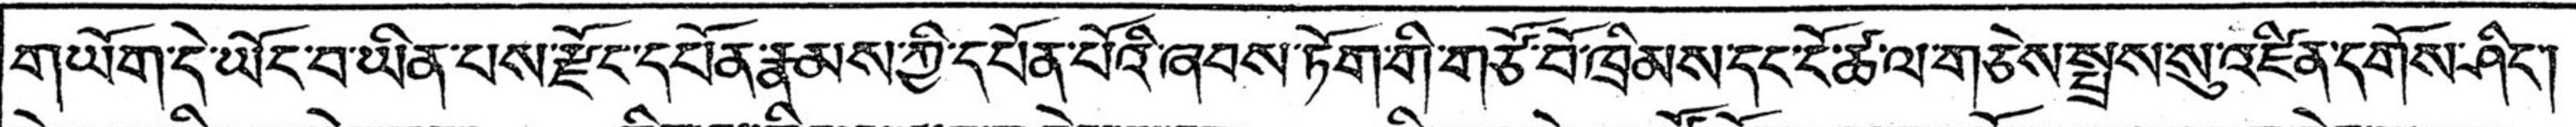གཡོག་དེ་ཡོད་པ་ཡིན་པས་རྫོང་དཔོན་རྣམས་ཀྱི་དཔོན་པོའི་ཞབས་ཏོག་གི་གཙོ་བོ་ཁྲིམས་དང་ངོ་ཚ་ལ་གཅེས་སྤྲས་སུ་འཛིན་དགོས་ཤིང་།
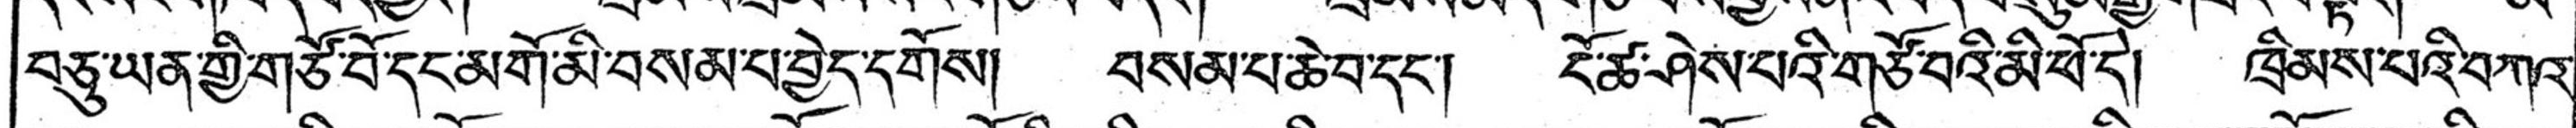བཅུ་ཡན་གྱི་གཙོ་བོ་དང་མགོ་མི་བསམ་པ་བྱེད་དགོས། བསམ་པ་ཆེ་བ་དང་། ངོ་ཚ་ཤེས་པའི་གཙོ་བའི་མི་ཕོ་དེ། ཁྲིམས་པའི་བཀའ་
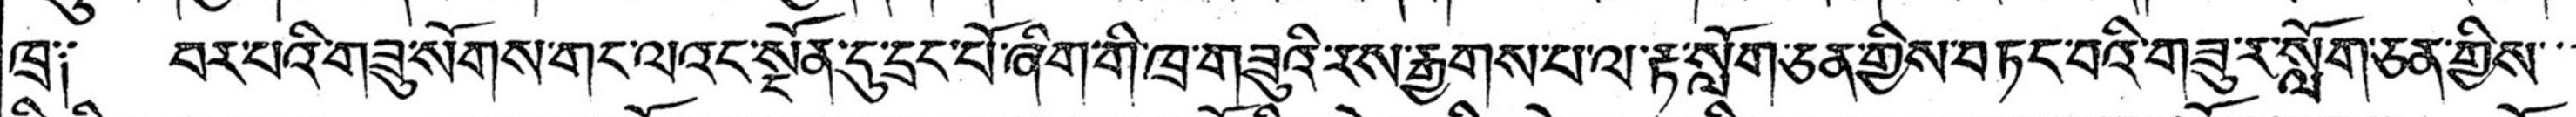ཁྲ༑ བར་པའི་གཟུ་སོགས་གང་ལའང་སྔོན་དུ་དྲང་པོ་ཞིག་གི་ཁྲི་གཟུའི་རས་རྒྱགས་པ་ལ་རྟ་སློག་ཅན་གྱིས་བཏང་བའི་གཟུ་ར་སློག་ཅན་གྱིས་་་
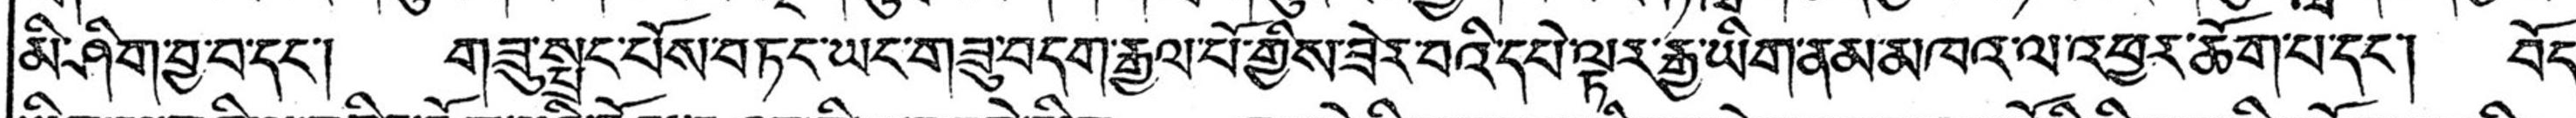མི་ཤིག་བྱ་བ་དང་། གཟུ་སྤྲང་པོས་བཏང་ཡང་གཟུ་བདག་རྒྱལ་པོ་གྱིས་ཟེར་བའི་དཔེ་ལྟར་རྒྱ་ཡིག་ནམ་མཁའ་ལ་འཕྱར་ཆོག་པ་དང་། བོད་
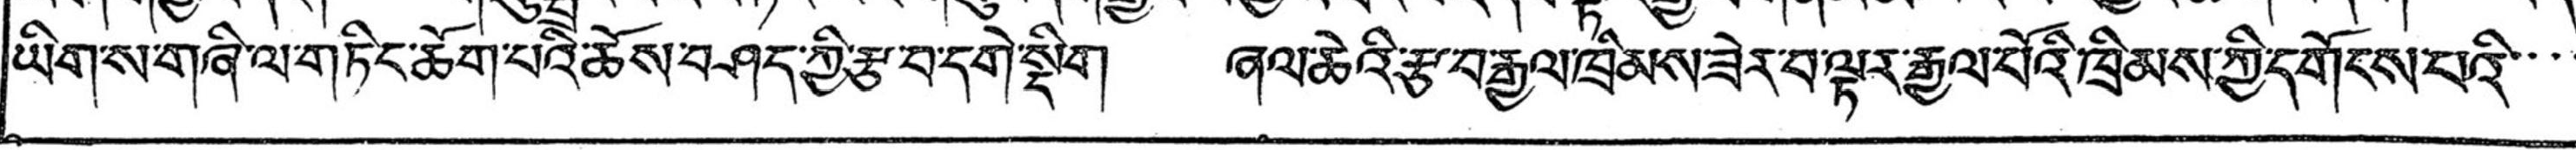ཡིག་ས་གཞི་ལ་གཏིང་ཆོག་པའི་ཆོས་བཤད་ཀྱི་རྩ་བ་དགེ་སྡིག ཞལ་ཆེའི་རྩ་བ་རྒྱལ་ཁྲིམས་ཟེར་བ་ལྟར་རྒྱལ་པོའི་ཁྲིམས་ཀྱི་དགོངས་པའི་་་་
